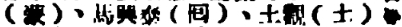（蒙）、馬興泰（囘）、土觀（土）等
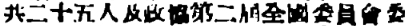共二十五人及政協第二屆全國委員會委
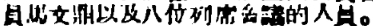員馬文鼎以及八位列席會議的人員。
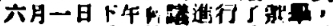六月一日下午會議進行了選舉，
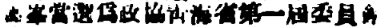高峯當選爲政協靑海省第一屆委員會
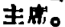主席。
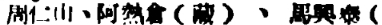周仁山、阿熱倉（藏）、馬興泰（
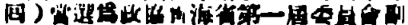囘）當選爲政協靑海省第一屆委員會副
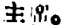主席。
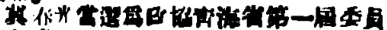冀春光當選爲政協青海省第一屆委員
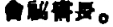會祕書長。
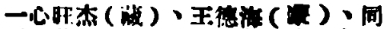一心旺杰（藏）、王德海（蒙）、同
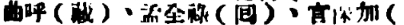曲呼（藏）、孟全祿（囘）、官保加（
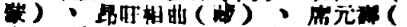蒙） 、昂旺相曲（藏） 、席元壽（
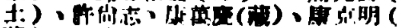土）、許尚志、康萬慶（藏）、康克明（
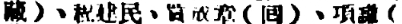藏）、程建民、買成章（囘）、項謙（
